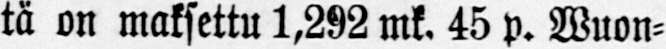tä on maksettu 1,282 mk. 45 p. Wuon-
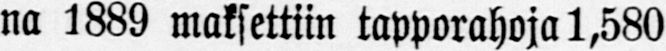na 1889 maksettiin tapporahoja 1,580
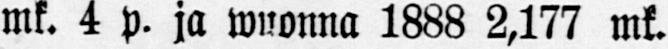mk. 4 p. ja wuonna 1888 2,177 mk.
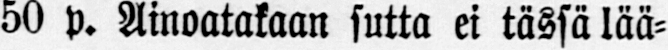50 p. Ainoatakaan sutta ei tässä lää-
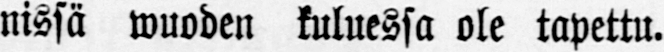nissä wuoden kuluessa ole tapettu.
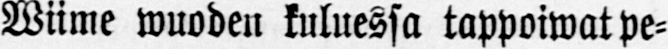Wiime wuoden kuluessa tappoiwat pe-
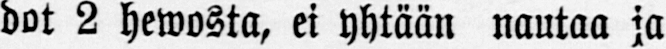dot 2 hewosta, ei yhtään nautaa ja
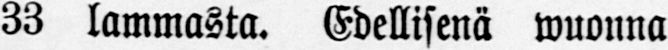33 lammasta. Edellisenä wuonna
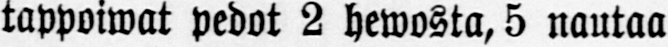tappoiwat pedot 2 hewosta, 5 nautaa
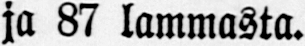ja 87 lammasta.
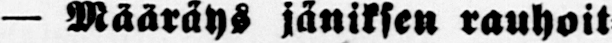— Määräys jäniksen rauhoit-
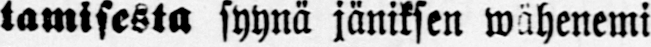tamisesta syynä jäniksen wähenemi
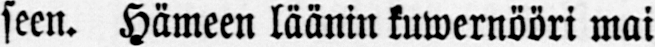seen. Hämeen läänin kuwernööri mai
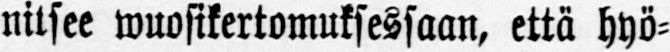nitsee wuosikertomuksessaan, että hyö-
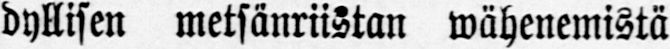dyllisen metsänriistan wähenemistä
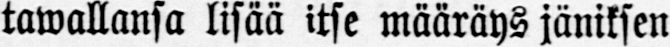tawallansa lisää itse määräys jäniksen
